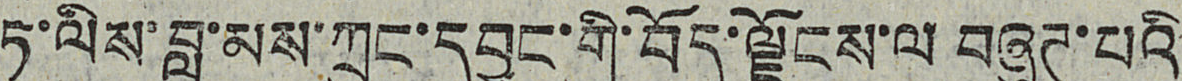ཏ་ལིས་བླ་མས་ཀྲུང་དབྱང་གི་བོད་ལྗོངས་ལ བཞུཊ་པའི་
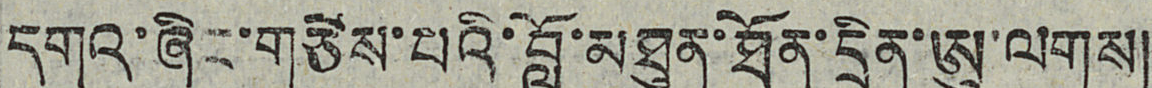དགའ་ཞིང་གཙེས་པའི་བློ་མཐུན་ཐོན་དྲིན་ཨུ་ལགས།
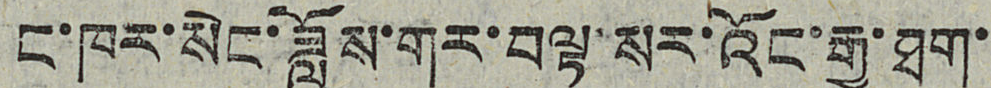ང་ཁར་སེང་ཟློས་གར་བལྟ་སར་འོང་རྒྱུ་ཐག་
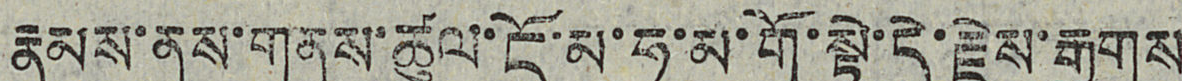རྣམས་ནས་གནས་ཚུལ་ངོ་མ་ཧ་མ་གོ་སྟེ་དེ་རྗེས་རྒྱུགས་
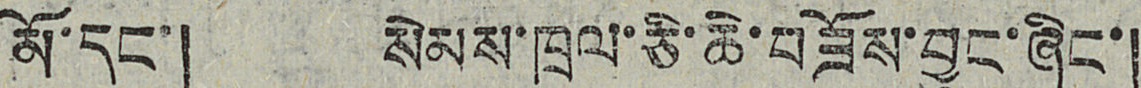མོ་དང་། སེམས་ཁྲལ་ཅི་ཆེ་བཟོས་བྱུང་ཞིང་།
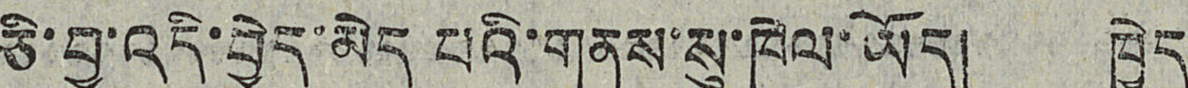ཅི་བྱ་འདི་བྱེད་མེད པའི་གནས་སུ་ཁེལ་ཡོད། ཁྱེད
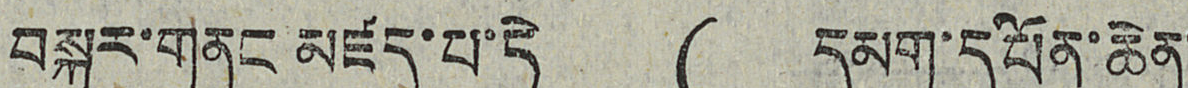བསྐུར་གནང མཛད་པ་དེ ( དམག་དཔོན་ཆེན་
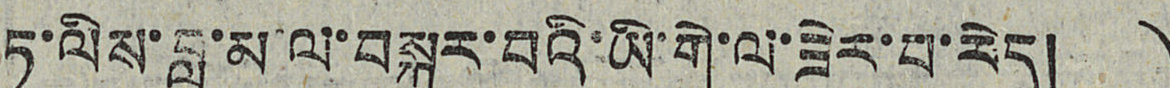ཏ་ལིས་བླ་མ་ལ་བསྐུར་བའི་ཡི་གེ་ལ་ཟེར་བ་རེད། )
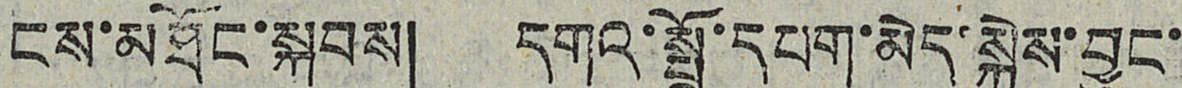ངས་མཐོང་སྐབས། དགའ་སྤྲོ་དཔག་མེད་སྐྱེས་བྱུང་།
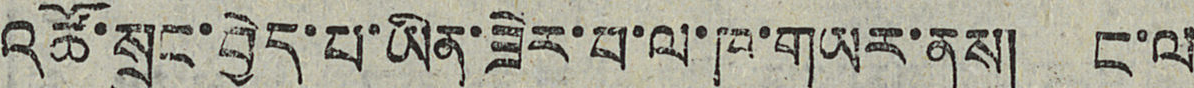འཚོ་སྲུང་བྱེད་པ་ཡིན་ཟེར་པ་ལ་ཁ་གཡར་ནས། ང་ལ
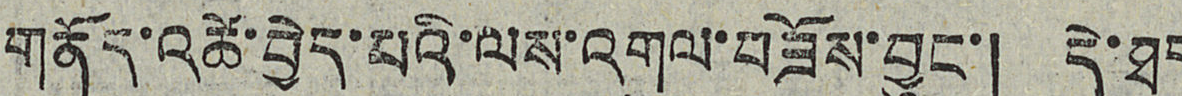གནོད་འཚེ་བྱེད་པའི་ལས་འགུལ་བཟོས་བྱུང་། དེ་ཐད
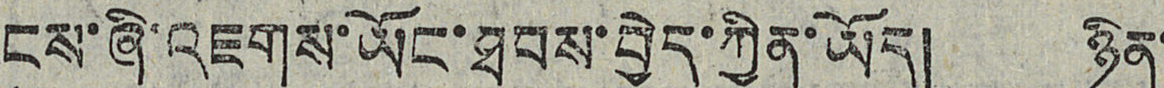ངས་ཞི་འཇགས་ཡོང་ཐབས་བྱེད་ཀྱིན་ཡོད། ཉིན་
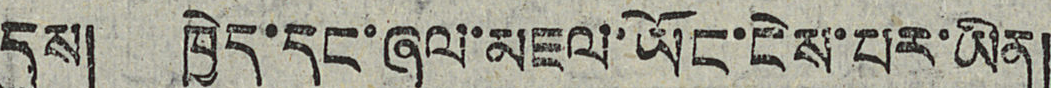དུས། ཁྱེད་དང་ཞལ་མཇལ་ཡོང་ངེས་པར་ཡིན།
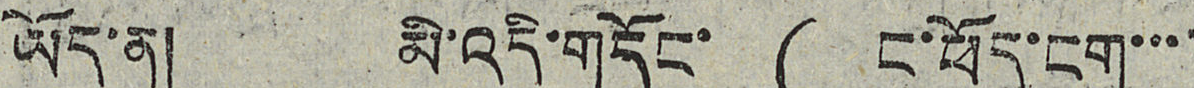ཡོད་ན། མི་འདི་གདོང་ ( ང་ཕོད་ངག་་་་
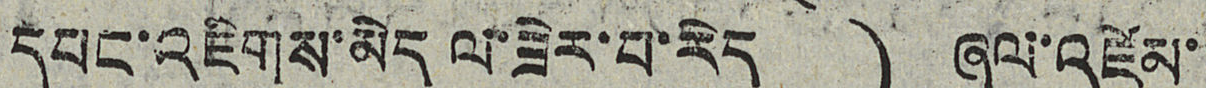དབང་འཇིགས་མེད ལ་ཟེར་བ་རེད ) ཞལ་འཛེམ་
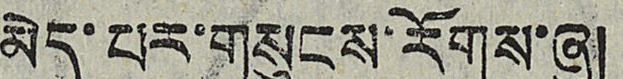མེད་པར་གསུངས་རོགས་ཞུ།
